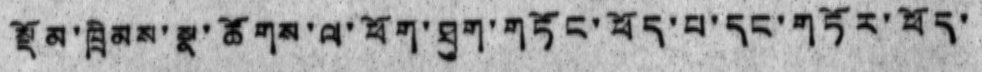སྡོམ་ཁྲིམས་སྣ་ཚོགས་ལ་ཕོག་ཐུག་གཏོང་ཕོད་པ་དང་གཏོར་ཕོད་
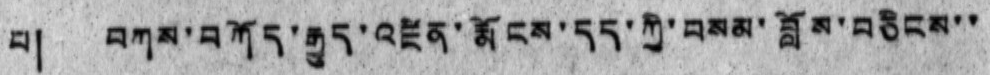པ། བཀས་བཀོད་རྒྱུད་འཛིན་རྨོངས་དད་ཀྱི་བསམ་བློས་བཅིངས་་
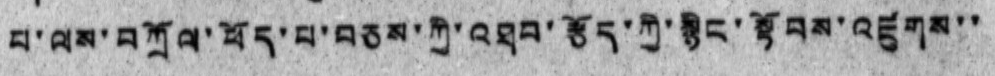པ་ལས་བཀྲོལ་ཕོད་པ་བཅས་ཀྱི་འཐབ་རྩོད་ཀྱི་སྙིང་སྟོབས་འཛུགས་་
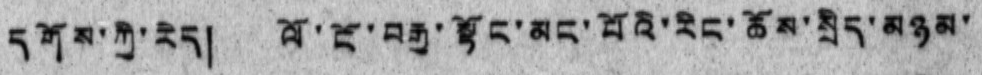དགོས་ཀྱི་རེད། ལོ་ངོ་བརྒྱ་སྟོང་མང་པོའི་རིང་ཆོས་སྲིད་མཉམ་
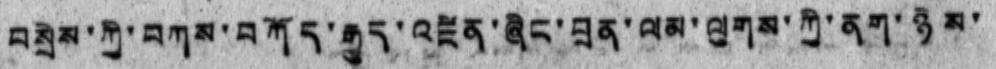བསྲེས་ཀྱི་བཀས་བཀོད་རྒྱུད་འཛིན་ཞིང་བྲན་ལམ་ལུགས་ཀྱི་ནག་ཉེས་
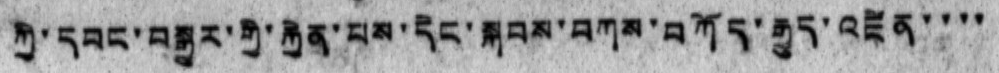ཀྱི་དབང་བསྒྱུར་གྱི་རྐྱེན་པས་དེང་སྐབས་བཀས་བཀོད་རྒྱུད་འཛིན་་་་
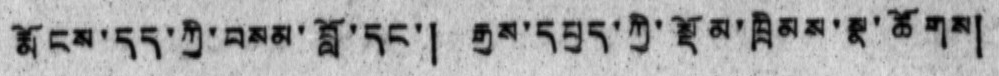རྨོངས་དད་ཀྱི་བསམ་བློ་དང་། རྒྱས་དཔྱད་ཀྱི་སྡོམ་ཁྲིམས་སྣ་ཚོགས།
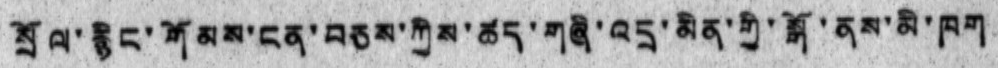སྲོལ་རྙིང་གོམས་ངན་བཅས་ཀྱིས་ཚད་གཞི་འདྲ་མིན་གྱི་སྒོ་ནས་མི་ཁག
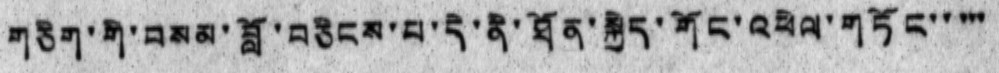གཅིག་གི་བསམ་བློ་བཅིངས་པ་དེ་ནི་ཐོན་སྐྱེད་གོང་འཕེལ་གཏོང་་་་་
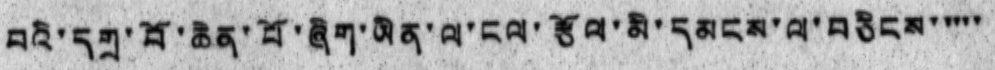བའི་དགྲ་བོ་ཆེན་པོ་ཞིག་ཡིན་ལ་ངལ་རྩོལ་མི་དམངས་ལ་བཅིངས་་་་་
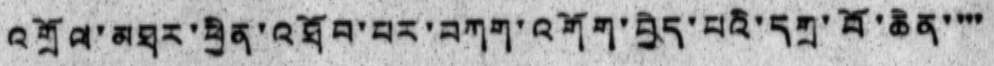འགྲོལ་མཐར་ཕྱིན་འཐོབ་པར་བཀག་འགོག་བྱེད་པའི་དགྲ་བོ་ཆེན་་་་
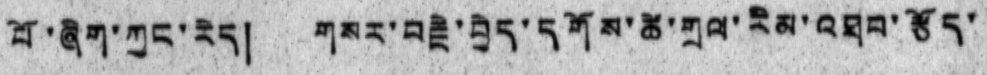པོ་ཞིག་ཀྱང་རེད། གསར་བརྗེ་བྱེད་དགོས་ཚེ་གྲལ་རིམ་འཐབ་རྩོད་
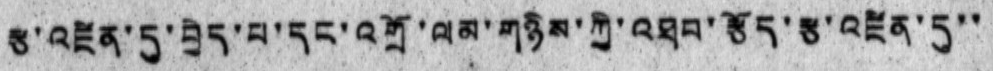རྩ་འཛིན་དུ་བྱེད་པ་དང་འགྲོ་ལམ་གཉིས་ཀྱི་འཐབ་རྩོད་རྩ་འཛིན་དུ་་
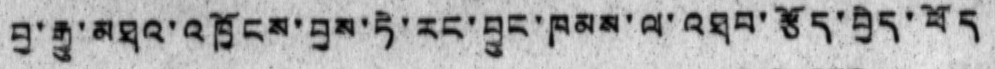བྱ་རྒྱུ་མཐའ་འཁྱོངས་བྱས་ཏེ་རང་བྱུང་ཁམས་ལ་འཐབ་རྩོད་བྱེད་ཕོད
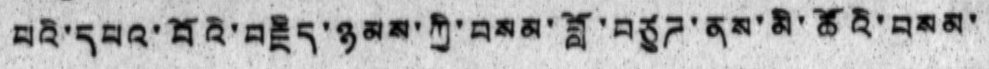པའི་དཔའ་བོའི་བརྗིད་ཉམས་ཀྱི་བསམ་བློ་བཙུཌ་ནས་མི་ཚོའི་བསམ་
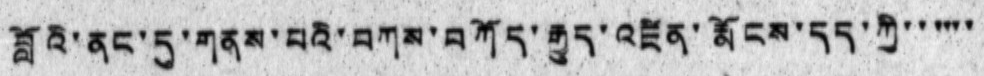བློའི་ནང་དུ་གནས་པའི་བཀས་བཀོད་རྒྱུད་འཛིན་རྨོངས་དད་ཀྱི་་་་་་
